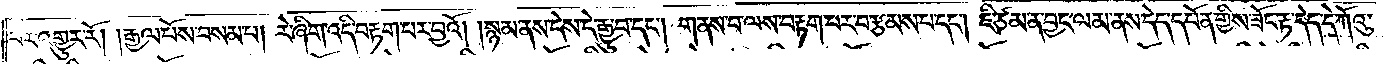བར་འགྱུར་རོ། །རྒྱལ་པོས་བསམ་པ། རེ་ཞིག་འདི་བརྟག་པར་བྱའོ། །སྙམ་ནས་དེས་དེ་རྒྱུ་བ་དང༌། གནས་པ་ལས་བརྟག་པར་བརྩམས་པ་དང༌། ཇི་ཙམ་ན་བྱང་ལམ་ནས་དེད་དཔོན་གྱིས་ཟོང་རྟ་དེད་དེ་ཀོའུ་
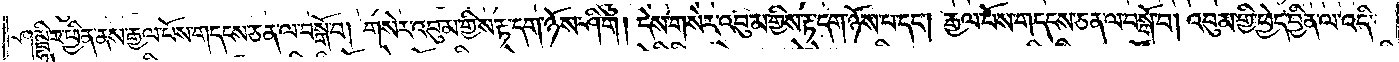ཤམྦྷིར་ཕྱིན་ནས་རྒྱལ་པོས་གདངས་ཅན་ལ་བསྒོ་བ། གསེར་འབུམ་གྱིས་རྟ་དག་ཉོས་ཤིག །དེས་གསེར་འབུམ་གྱིས་རྟ་དག་ཉོས་པ་དང༌། རྒྱལ་པོས་གདངས་ཅན་ལ་བསྒོ་བ། འབུམ་གྱི་ཕྱེད་བྱིན་ལ་འདི་
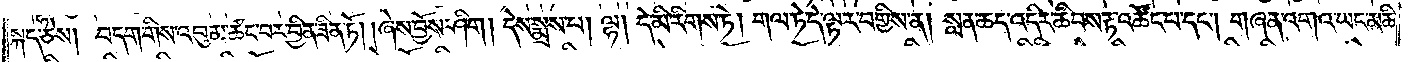སྐད་ཅེས། བདག་གིས་འབུམ་ཚང་བར་བྱིན་ཟིན་ཏོ། །ཞེས་བྱོས་ཤིག། དེས་སྨྲས་པ། ལྷ། དེ་མི་རིགས་ཏེ། གལ་ཏེ་དེ་ལྟར་བགྱིས་ན། སླན་ཆད་འདིར་ཆིབས་རྟ་འཚོང་པ་དང༌། གཞན་འགའ་ཡང་མཆི་
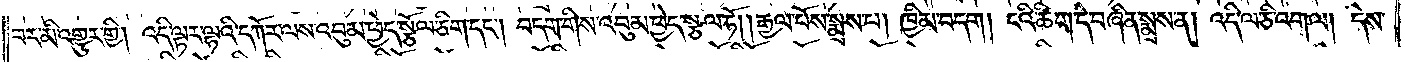བར་མི་འགྱུར་གྱི། འདི་ལྟར་ལྷའི་དཀོར་ལས་འབུམ་ཕྱེད་སྩོལ་ཅིག་དང༌། བདག་གིས་འབུམ་ཕྱེད་སྩལ་ཏོ། །རྒྱལ་པོས་སྨྲས་པ། ཁྱིམ་བདག། ངའི་ཚིག་དེ་བཞིན་སྨྲས་ན། འདི་ལ་ཅི་འགལ། དེས་
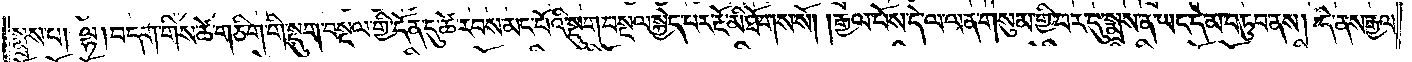སྨྲས་པ། ལྷ། བདག་གིས་ཚེ་གཅིག་གི་སྡུག་བསྔལ་གྱི་དོན་དུ་ཚེ་རབས་མང་པོའི་སྡུག་བསྔལ་སྐྱེད་པར་རྔོ་མི་ཐོགས་སོ། །རྒྱལ་པོས་དེ་ལ་ལན་གསུམ་གྱི་བར་དུ་སྨྲས་ན་ཡང་དེ་མ་བཏུབ་ནས། དེ་ནས་རྒྱལ་
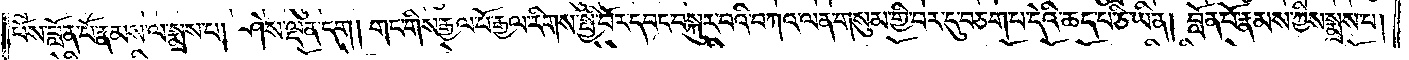པོས་བློན་པོ་རྣམས་ལ་སྨྲས་པ། ཤེས་ལྡན་དག། གང་གིས་རྒྱལ་པོ་རྒྱལ་རིགས་སྤྱི་བོར་དབང་བསྐུར་བའི་བཀའ་ལན་གསུམ་གྱི་བར་དུ་བཅག་པ་དེའི་ཆད་པ་ཅི་ཡིན། བློན་པོ་རྣམས་ཀྱིས་སྨྲས་པ།
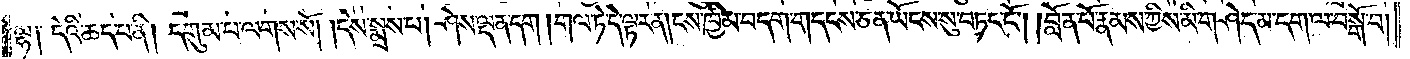ལྷ༑ དེའི་ཆད་པ་ནི། དགུམ་པ་ལགས་སོ། །དེས་སྨྲས་པ། ཤེས་ལྡན་དག །གལ་ཏེ་དེ་ལྟར་ན། ངས་ཁྱིམ་བདག་གདངས་ཅན་ཡོངས་སུ་བཏང་ངོ༌། །བློན་པོ་རྣམས་ཀྱིས་མི་གཤེད་མ་དག་ལ་བསྒོ་བ།
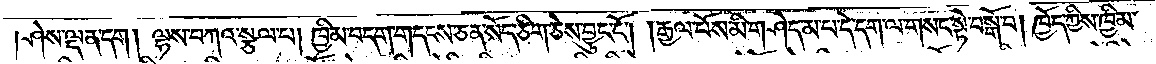ཤེས་ལྡན་དག། ལྷས་བཀའ་སྩལ་པ། ཁྱིམ་བདག་གདངས་ཅན་སོད་ཅིག་ཅེས་བྱུང་ངོ༌། །རྒྱལ་པོས་མི་གཤེད་མ་པ་དེ་དག་ལ་གསང་སྟེ་བསྒོ་བ། ཁྱོད་ཀྱིས་ཁྱིམ་
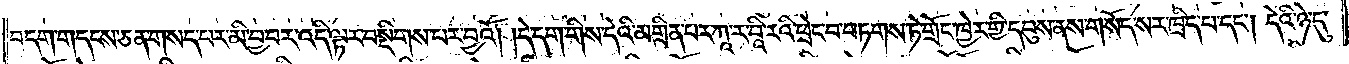བདག་གདངས་ཅན་གསད་པར་མི་བྱ་བར་འདི་ལྟར་བསྡིགས་པར་བྱའོ། །དེ་དག་གིས་དེའི་མགྲིན་པར་ཀཱ་ར་བཱི་རའི་ཕྲེང་བ་བཏགས་ཏེ་གྲོང་ཁྱེར་གྱི་དབུས་ནས་གསོད་སར་ཁྲིད་པ་དང༌། དེའི་ཉེ་དུ་
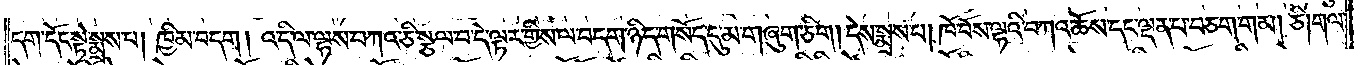དག་དོང་སྟེ་སྨྲས་པ། ཁྱིམ་བདག། འདི་ལ་ལྷས་བཀའ་ཅི་སྩལ་བ་དེ་ལྟར་གྱིས་ལ་བདག་ཉིད་གསོད་དུ་མ་གཞུག་ཅིག། དེས་སྨྲས་པ། ཁོ་བོས་ལྷའི་བཀའ་ཆོས་དང་ལྡན་པ་བཅག་གམ། ཅི། གལ་
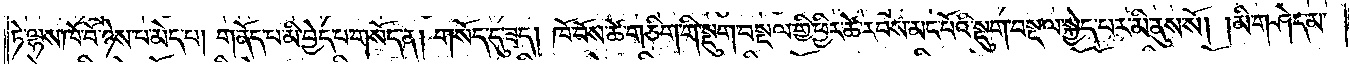ཏེ་ལྷས་ཁོ་བོ་ཉེས་པ་མེད་པ། གནོད་པ་མི་བྱེད་པ་གསོད་ན། གསོད་དུ་ཟད། ཁོ་བོས་ཚེ་གཅིག་གི་སྡུག་བསྔལ་གྱི་ཕྱིར་ཚེ་རབས་མང་པོའི་སྡུག་བསྔལ་སྐྱེད་པར་མི་ནུས་སོ། །མི་གཤེད་མ་
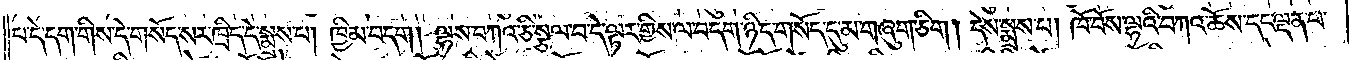པ་དེ་དག་གིས་དེ་གསོད་སར་ཁྲིད་དེ་སྨྲས་པ། ཁྱིམ་བདག། ལྷས་བཀའ་ཅི་སྩལ་བ་དེ་ལྟར་གྱིས་ལ་བདག་ཉིད་གསོད་དུ་མ་གཞུག་ཅིག། དེས་སྨྲས་པ། ཁོ་བོས་ལྷའི་བཀའ་ཆོས་དང་ལྡན་པ་
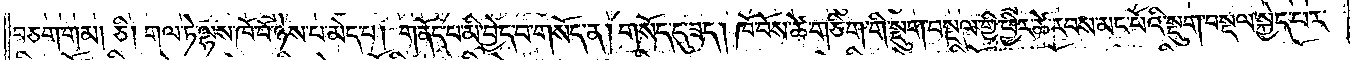བཅག་གམ། ཅི། གལ་ཏེ་ལྷས་ཁོ་བོ་ཉེས་པ་མེད་པ། གནོད་པ་མི་བྱེད་པ་གསོད་ན། གསོད་དུ་ཟད། ཁོ་བོས་ཚེ་གཅིག་གི་སྡུག་བསྔལ་གྱི་ཕྱིར་ཚེ་རབས་མང་པོའི་སྡུག་བསྔལ་སྐྱེད་པར་
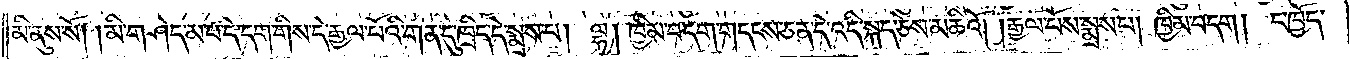མི་ནུས་སོ། །མི་གཤེད་མ་པ་དེ་དག་གིས་དེ་རྒྱལ་པོའི་གན་དུ་ཁྲིད་དེ་སྨྲས་པ། ལྷ། ཁྱིམ་བདག་གདངས་ཅན་དེ་འདི་སྐད་ཅེས་མཆིའོ། །རྒྱལ་པོས་སྨྲས་པ། ཁྱིམ་བདག། ང་ཁྱོད་
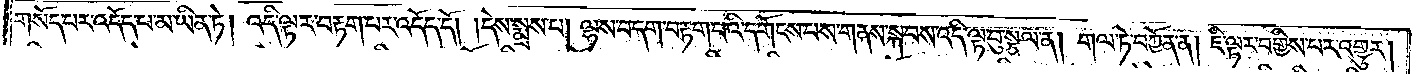གསོད་པར་འདོད་པ་མ་ཡིན་ཏེ། འདི་ལྟར་བརྟག་པར་འདོད་དོ། །དེས་སྨྲས་པ། ལྷས་བདག་བརྟག་པའི་དགོངས་པས་གནས་སྐབས་འདི་ལྟ་བུ་སྩལ་ན། གལ་ཏེ་བཀྱོན་ན། ཇི་ལྟར་བགྱིས་པར་འགྱུར།
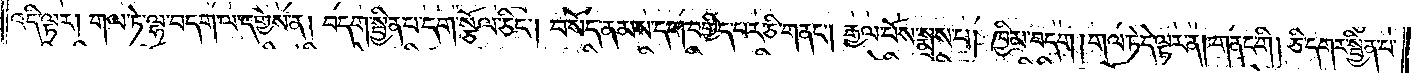འདི་ལྟར། གལ་ཏེ་ལྷ་བདག་ལ་དགྱེས་ན། བདག་སྦྱིན་པ་དག་སྩོལ་ཅིང༌། བསོད་ནམས་དག་བགྱིད་པར་ཅི་གནང༌། རྒྱལ་པོས་སྨྲས་པ། ཁྱིམ་བདག། གལ་ཏེ་དེ་ལྟར་ན། གནང་གི། ཅི་དགར་སྦྱིན་པ་
